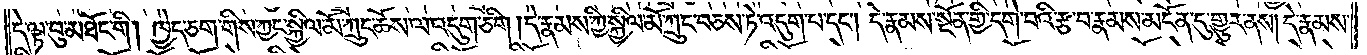དེ་ལྟ་བུ་མཐོང་གི། ཁྱེད་ཅག་གིས་ཀྱང་སྐྱིལ་མོ་ཀྲུང་ཆོས་ལ་འདུག་ཅིག། དེ་རྣམས་ཀྱི་སྐྱིལ་མོ་ཀྲུང་བཅས་ཏེ་འདུག་པ་དང༌། དེ་རྣམས་སྔོན་གྱི་དགེ་བའི་རྩ་བ་རྣམས་མངོན་དུ་གྱུར་ནས། དེ་རྣམས་
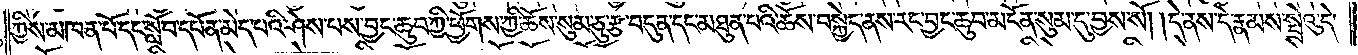ཀྱིས་མཁན་པོ་དང་སློབ་དཔོན་མེད་པའི་ཤེས་པས་བྱང་ཆུབ་ཀྱི་ཕྱོགས་ཀྱི་ཆོས་སུམ་ཅུ་རྩ་བདུན་དང་མཐུན་པའི་ཆོས་བསྐྱེད་ནས་རང་བྱང་ཆུབ་མངོན་སུམ་དུ་བྱས་སོ། །དེ་ནས་དེ་རྣམས་སྤྲེའུ་དེ་
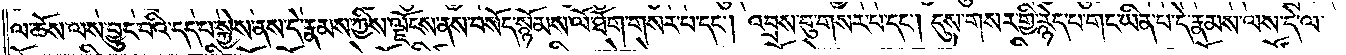ལ་ཆོས་ལས་བྱུང་བའི་དད་པ་སྐྱེས་ནས་དེ་རྣམས་ཀྱིས་ལྗོངས་ནས་བསོད་སྙོམས་ལོ་ཐོག་གསར་པ་དང༌། འབྲས་བུ་གསར་པ་དང༌། དུས་གསར་གྱི་རྙེད་པ་གང་ཡིན་པ་དེ་རྣམས་ལས་དེ་ལ་
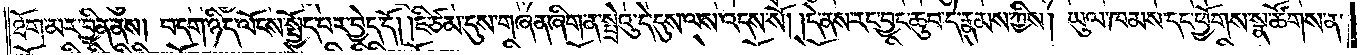ཐོག་མར་བྱིན་ནས། བདག་ཉིད་ལོངས་སྤྱོད་པར་བྱེད་དོ། །ཇི་ཙམ་དུས་གཞན་ཞིག་ན་སྤྲེའུ་དེ་དུས་ལས་འདས་སོ། །དེ་ནས་རང་བྱང་ཆུབ་དེ་རྣམས་ཀྱིས། ཡུལ་ཁམས་དང་ཕྱོགས་སྣ་ཚོགས་ན་
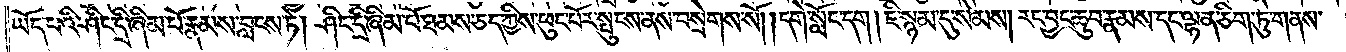ཡོད་པའི་ཤིང་དྲི་ཞིམ་པོ་རྣམས་བླངས་ཏེ། ཤིང་དྲི་ཞིམ་པོ་ཐམས་ཅད་ཀྱིས་ཕུང་པོར་སྤུངས་ནས་བསྲེགས་སོ། །དགེ་སློང་དག །ཇི་སྙམ་དུ་སེམས། རང་བྱང་ཆུབ་རྣམས་དང་ལྷན་ཅིག་ཏུ་གནས་
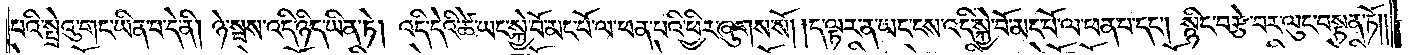པའི་སྤྲེའུ་གང་ཡིན་པ་དེ་ནི། ཉེ་སྦས་འདི་ཉིད་ཡིན་ཏེ། འདི་དེའི་ཚེ་ཡང་སྐྱེ་བོ་མང་པོ་ལ་ཕན་པའི་ཕྱིར་ཞུགས་སོ། །ད་ལྟར་ན་ཡང་ངས་འདི་སྐྱེ་བོ་མང་པོ་ལ་ཕན་པ་དང༌། སྙིང་བརྩེ་བར་ལུང་བསྟན་ཏོ། །
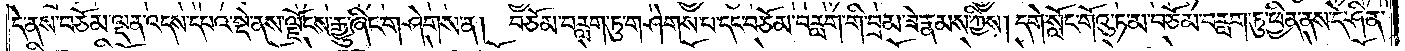དེ་ནས་བཅོམ་ལྡན་འདས་དཔའ་སྡེ་ནས་ལྗོངས་རྒྱུ་ཞིང་གཤེགས་ན། བཅོམ་བརླག་ཏུ་གཤེགས་པ་དང་བཅོམ་བརླག་གི་བྲམ་ཟེ་རྣམས་ཀྱིས། དགེ་སློང་གོའུ་ཏ་མ་བཅོམ་བརླག་ཏུ་ཕྱིན་ནས་དེ་ཤིན་
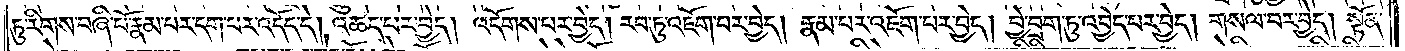ཏུ་རིགས་བཞི་པོ་རྣམ་པར་དག་པར་འདོད་དེ། འཆད་པར་བྱེད། འདོགས་པར་བྱེད། རབ་ཏུ་འཇོག་པར་བྱེད། རྣམ་པར་འཇོག་པར་བྱེད། བྱེ་བྲག་ཏུ་འབྱེད་པར་བྱེད། གསལ་བར་བྱེད། སྟོན་
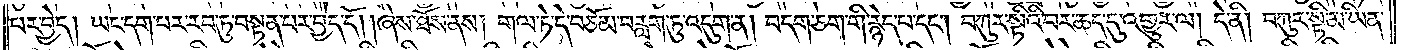པར་བྱེད། ཡང་དག་པར་རབ་ཏུ་བསྟན་པར་བྱེད་དོ། །ཞེས་ཐོས་ནས། གལ་ཏེ་དེ་བཅོམ་བརླག་ཏུ་འདུག་ན། བདག་ཅག་གི་རྙེད་པ་དང༌། བཀུར་སྟིའི་བར་ཆད་དུ་འགྱུར་ལ། དེ་ནི། བཀུར་སྟི་མ་ཡིན་
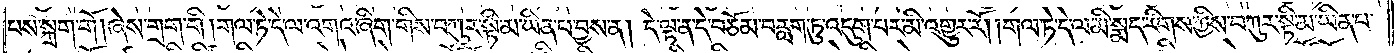པས་སྐྲག་གོ །ཞེས་གྲག་གི །གལ་ཏེ་དེ་ལ་འགའ་ཞིག་གིས་བཀུར་སྟི་མ་ཡིན་པ་བྱས་ན། དེ་ལྟ་ན་དེ་བཅོམ་བརླག་ཏུ་འདུག་པར་མི་འགྱུར་རོ། །གལ་ཏེ་དེ་ལ་མི་སྨད་རིགས་ཀྱིས་བཀུར་སྟི་མ་ཡིན་པ་
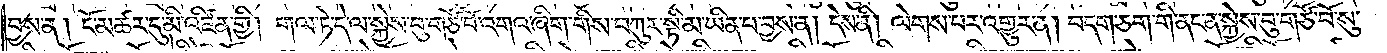བྱས་ན། ངོ་མཚར་དུ་མི་འཛིན་གྱི། གལ་ཏེ་དེ་ལ་སྐྱེས་བུ་གཙོ་བོ་འགའ་ཞིག་གིས་བཀུར་སྟི་མ་ཡིན་པར་བྱས་ན། དེས་ནི། ལེགས་པར་འགྱུར་ན། བདག་ཅག་གི་ནང་ན་སྐྱེས་བུ་གཙོ་བོ་སུ་
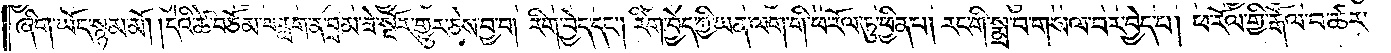ཞིག་ཡོད་སྙམ་མོ། །དེའི་ཚེ་བཅོམ་བརླག་ན་བྲམ་ཟེ་སྔོར་གྱུར་ཅེས་བྱ་བ། རིག་བྱེད་དང༌། རིག་བྱེད་ཀྱི་ཡན་ལག་གི་ཕ་རོལ་ཏུ་ཕྱིན་པ། རང་གི་སྨྲ་བ་གསལ་བར་བྱེད་པ། ཕ་རོལ་གྱི་རྒོལ་བ་ཚར་
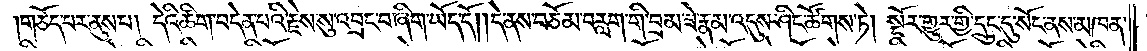གཅོད་པར་ནུས་པ། དེའི་ཚིག་བདེན་པའི་རྗེས་སུ་འབྲང་བ་ཞིག་ཡོད་དོ། །དེ་ནས་བཅོམ་བརླག་གི་བྲམ་ཟེ་རྣམ་འདུས་ཤིང་ཚོགས་ཏེ། སྔོར་གྱུར་གྱི་དྲུང་དུ་སོང་ནས་མཁན་
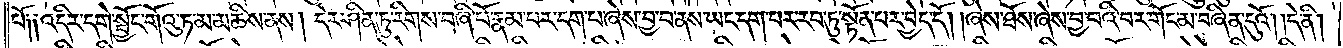པོ༑ ༑འདིར་དགེ་སྦྱོང་གོའུ་ཏ་མ་མཆིས་ནས། དེར་ཤིན་ཏུ་རིགས་བཞི་པོ་རྣམ་པར་དག་པ་ཞེས་བྱ་བ་ནས་ཡང་དག་པར་རབ་ཏུ་སྟོན་པར་བྱེད་དོ། །ཞེས་ཐོས་ཞེས་བྱ་བའི་བར་གོང་མ་བཞིན་དུའོ། །དེ་ནི།
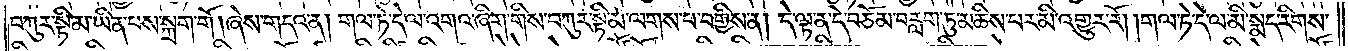བཀུར་སྟི་མ་ཡིན་པས་སྐྲག་གོ །ཞེས་གདའ་ན། གལ་ཏེ་དེ་ལ་འགའ་ཞིག་གིས་བཀུར་སྟི་མ་ལགས་པ་བགྱིས་ན། དེ་ལྟ་ན་དེ་བཅོམ་བརླག་ཏུ་མཆིས་པར་མི་འགྱུར་རོ། །གལ་ཏེ་དེ་ལ་མི་སྨད་རིགས་
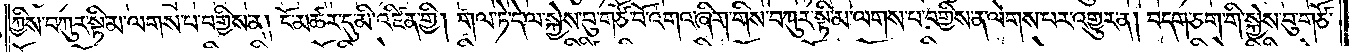ཀྱིས་བཀུར་སྟི་མ་ལགས་པ་བགྱིས་ན། ངོ་མཚར་དུ་མི་འཛིན་གྱི། གལ་ཏེ་དེ་ལ་སྐྱེས་བུ་གཙོ་བོ་འགའ་ཞིག་གིས་བཀུར་སྟི་མ་ལགས་པ་བགྱིས་ན་ལེགས་པར་འགྱུར་ན། བདག་ཅག་གི་སྐྱེས་བུ་གཙོ་
